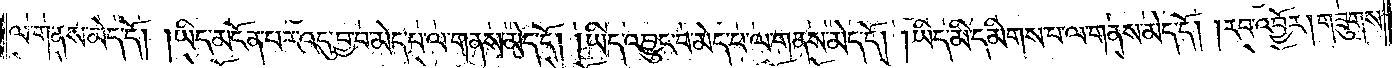ལ་གནས་མེད་དོ། །ཡིད་མངོན་པར་འདུ་བྱ་བ་མེད་པ་ལ་གནས་མེད་དོ། །ཡིད་འབྱུང་བ་མེད་པ་ལ་གནས་མེད་དོ། །ཡིད་མི་དམིགས་པ་ལ་གནས་མེད་དོ། །རབ་འབྱོར། གཟུགས་
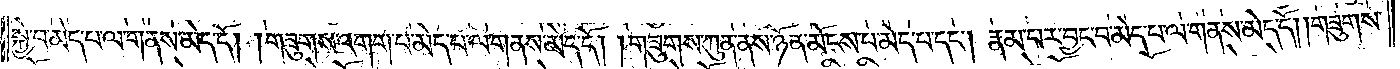སྐྱེ་བ་མེད་པ་ལ་གནས་མེད་དོ། །གཟུགས་འགག་པ་མེད་པ་ལ་གནས་མེད་དོ། །གཟུགས་ཀུན་ནས་ཉོན་མོངས་པ་མེད་པ་དང༌། རྣམ་པར་བྱང་བ་མེད་པ་ལ་གནས་མེད་དོ། །གཟུགས་
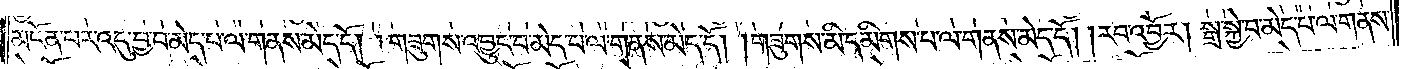མངོན་པར་འདུ་བྱ་བ་མེད་པ་ལ་གནས་མེད་དོ། །གཟུགས་འབྱུང་བ་མེད་པ་ལ་གནས་མེད་དོ། །གཟུགས་མི་དམིགས་པ་ལ་གནས་མེད་དོ། །རབ་འབྱོར། སྒྲ་སྐྱེ་བ་མེད་པ་ལ་གནས་
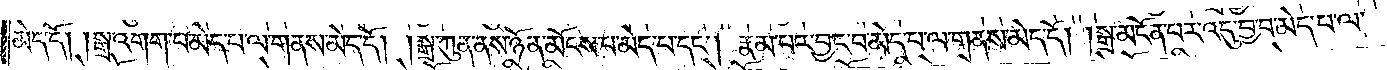མེད་དོ། །སྒྲ་འགག་པ་མེད་པ་ལ་གནས་མེད་དོ། །སྒྲ་ཀུན་ནས་ཉོན་མོངས་པ་མེད་པ་དང༌། རྣམ་པར་བྱང་བ་མེད་པ་ལ་གནས་མེད་དོ། །སྒྲ་མངོན་པར་འདུ་བྱ་བ་མེད་པ་ལ་
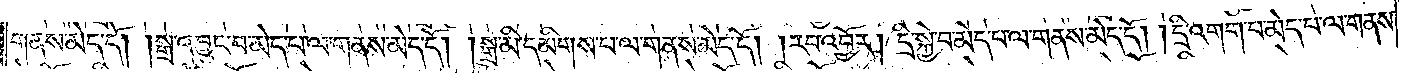གནས་མེད་དོ། །སྒྲ་འབྱུང་པ་མེད་པ་ལ་གནས་མེད་དོ། །སྒྲ་མི་དམིགས་པ་ལ་གནས་མེད་དོ། །རབ་འབྱོར། དྲི་སྐྱེ་བ་མེད་པ་ལ་གནས་མེད་དོ། །དྲི་འགག་པ་མེད་པ་ལ་གནས་
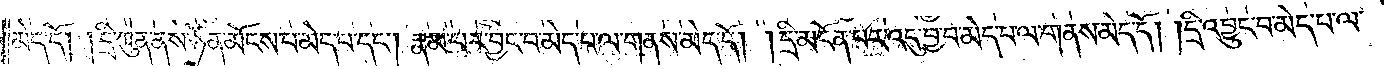མེད་དོ། །དྲི་ཀུན་ནས་ཉོན་མོངས་པ་མེད་པ་དང༌། རྣམ་པར་བྱང་བ་མེད་པ་ལ་གནས་མེད་དོ། །དྲི་མངོན་པར་འདུ་བྱ་བ་མེད་པ་ལ་གནས་མེད་དོ། །དྲི་འབྱུང་བ་མེད་པ་ལ་
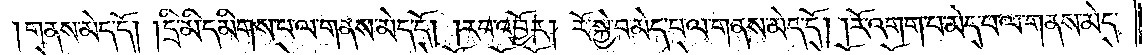གནས་མེད་དོ། །དྲི་མི་དམིགས་པ་ལ་གནས་མེད་དོ། །རབ་འབྱོར། རོ་སྐྱེ་བ་མེད་པ་ལ་གནས་མེད་དོ། །རོ་འགག་པ་མེད་པ་ལ་གནས་མེད་
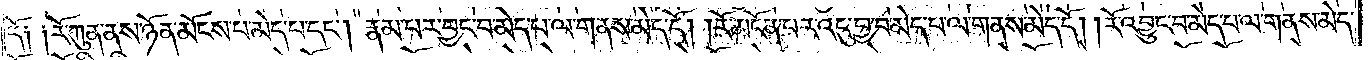དོ། །རོ་ཀུན་ནས་ཉོན་མོངས་པ་མེད་པ་དང༌། རྣམ་པར་བྱང་བ་མེད་པ་ལ་གནས་མེད་དོ། །རོ་མངོན་པར་འདུ་བྱ་བ་མེད་པ་ལ་གནས་མེད་དོ། །རོ་འབྱུང་བ་མེད་པ་ལ་གནས་མེད་
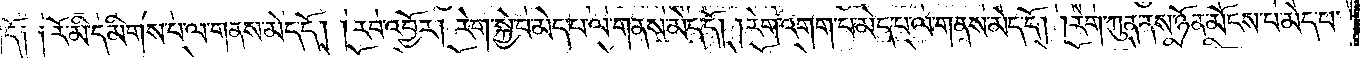དོ། །རོ་མི་དམིགས་པ་ལ་གནས་མེད་དོ། །རབ་འབྱོར། རེག་སྐྱེ་བ་མེད་པ་ལ་གནས་མེད་དོ། །རེག་འགག་པ་མེད་པ་ལ་གནས་མེད་དོ། །རེག་ཀུན་ནས་ཉོན་མོངས་པ་མེད་པ་
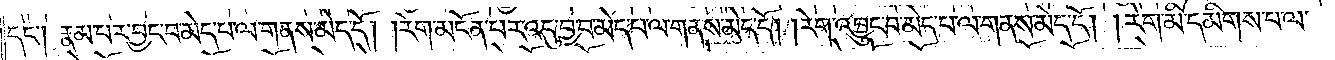དང༌། རྣམ་པར་བྱང་བ་མེད་པ་ལ་གནས་མེད་དོ། །རེག་མངོན་པར་འདུ་བྱ་བ་མེད་པ་ལ་གནས་མེད་དོ། །རེག་འབྱུང་བ་མེད་པ་ལ་གནས་མེད་དོ། །རེག་མི་དམིགས་པ་ལ་
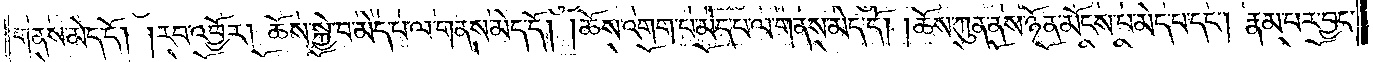གནས་མེད་དོ། །རབ་འབྱོར། ཆོས་སྐྱེ་བ་མེད་པ་ལ་གནས་མེད་དོ། །ཆོས་འགག་བ་མེད་པ་ལ་གནས་མེད་དོ། །ཆོས་ཀུན་ནས་ཉོན་མོངས་པ་མེད་པ་དང༌། རྣམ་པར་བྱང་
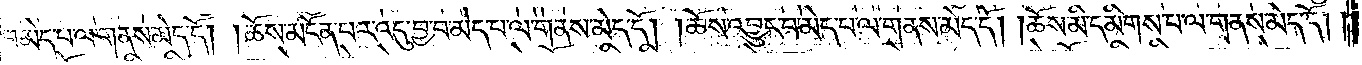བ་མེད་པ་ལ་གནས་མེད་དོ། །ཆོས་མངོན་པར་འདུ་བྱ་བ་མེད་པ་ལ་གནས་མེད་དོ། །ཆོས་འབྱུང་བ་མེད་པ་ལ་གནས་མེད་དོ། །ཆོས་མི་དམིགས་པ་ལ་གནས་མེད་དོ། །
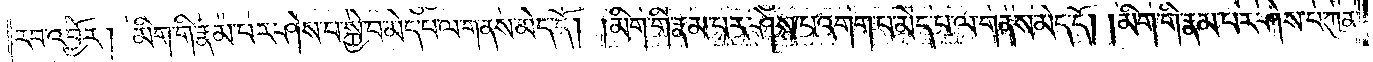རབ་འབྱོར། མིག་གི་རྣམ་པར་ཤེས་པ་སྐྱེ་བ་མེད་པ་ལ་གནས་མེད་དོ། །མིག་གི་རྣམ་པར་ཤེས་པ་འགག་པ་མེད་པ་ལ་གནས་མེད་དོ། །མིག་གི་རྣམ་པར་ཤེས་པ་ཀུན་
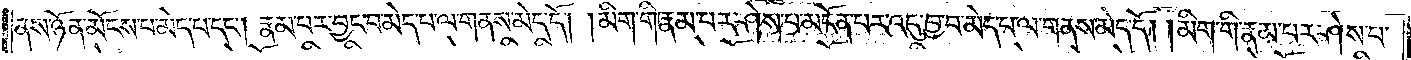ནས་ཉོན་མོངས་པ་མེད་པ་དང༌། རྣམ་པར་བྱང་བ་མེད་པ་ལ་གནས་མེད་དོ། །མིག་གི་རྣམ་པར་ཤེས་པ་མངོན་པར་འདུ་བྱ་བ་མེད་པ་ལ་གནས་མེད་དོ། །མིག་གི་རྣམ་པར་ཤེས་པ་
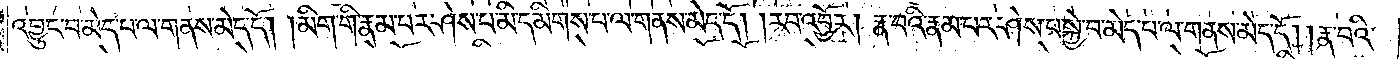འབྱུང་བ་མེད་པ་ལ་གནས་མེད་དོ། །མིག་གི་རྣམ་པར་ཤེས་པ་མི་དམིགས་པ་ལ་གནས་མེད་དོ། །རབ་འབྱོར། རྣ་བའི་རྣམ་པར་ཤེས་པ་སྐྱེ་བ་མེད་པ་ལ་གནས་མེད་དོ། །རྣ་བའི་
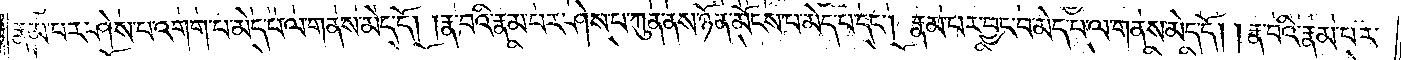རྣམ་པར་ཤེས་པ་འགག་པ་མེད་པ་ལ་གནས་མེད་དོ། །རྣ་བའི་རྣམ་པར་ཤེས་པ་ཀུན་ནས་ཉོན་མོངས་པ་མེད་པ་དང༌། རྣམ་པར་བྱང་བ་མེད་པ་ལ་གནས་མེད་དོ། །རྣ་བའི་རྣམ་པར་
